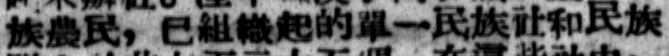族農民，已組織起的單一民族社和民族
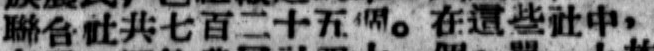聯合社共七百二十五個。在這些社中，
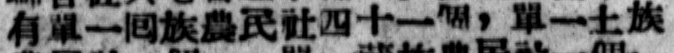由單一囘族農民社四十一個，單一土族
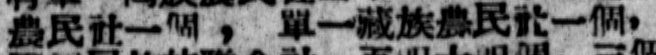農民社一個，單一藏族農民社一個，
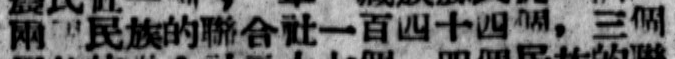兩個民族的聯合社一百四十四個，三個
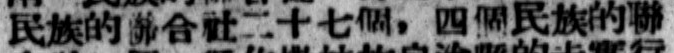民族的聯合社二十七個，四個民族的聯
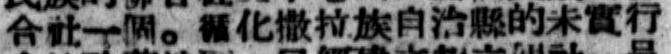合社一個。循化撒拉族自治縣的未實行
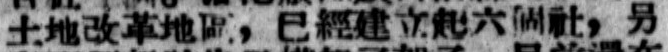土地改革地區，已經建立起六個社，另
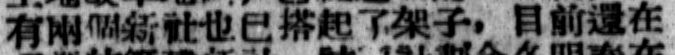有兩個新社也已搭起了架子，目前還在
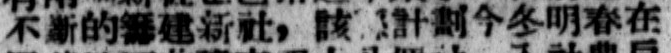不斷的興建新社，該縣計劃今冬明春在
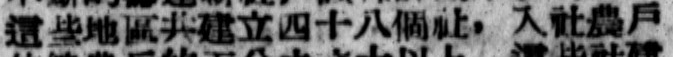這些地區共建立四十八個社，入社農戶
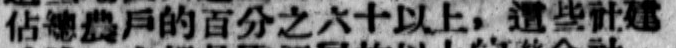佔總農戶的百分之六十以上，這些社建
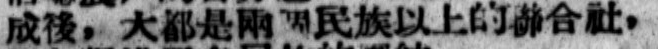成後，大都是兩個民族以上的聯合社，
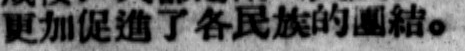更加促進了各民族的團結。
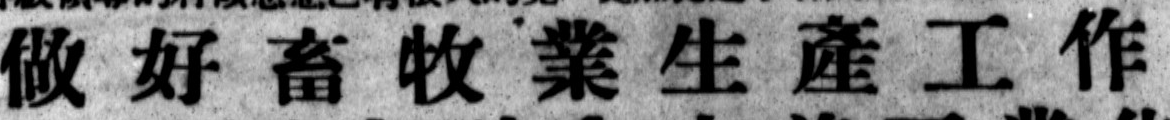做好畜牧業生產工作
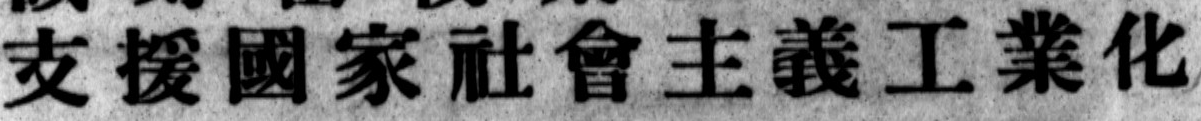支援國家社會主義工業化
